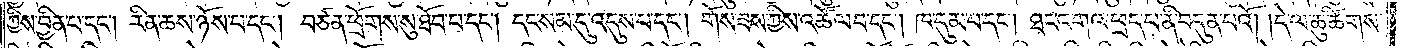ཀྱིས་བྱིན་པ་དང༌། རིན་ཆས་ཉོས་པ་དང༌། བཙན་ཕྲོགས་སུ་ཐོབ་པ་དང༌། དང་སམ་དུ་འདུས་པ་དང༌། གོས་ཟས་ཀྱིས་འཚོལ་བ་དང༌། ཁ་དུམ་པ་དང༌། ཐང་འགའ་ཕྲད་པ་ནི་བདུན་པའོ། །དེ་ལ་ཆུ་ཚིགས་
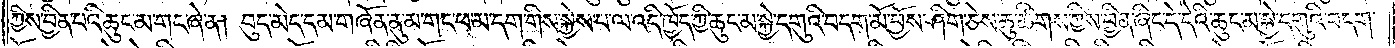ཀྱིས་བྱིན་པའི་ཆུང་མ་གང་ཞེ་ན། བུད་མེད་དམ་གཞོན་ནུ་མ་གང་ཕ་མ་དག་གིས་སྐྱེས་པ་ལ་འདི་ཁྱོད་ཀྱི་ཆུང་མ་སྐྱེ་དགུའི་བདག་མོ་བྱོས་ཤིག་ཅེས་ཆུ་ཚིགས་ཀྱིས་བྱིན་ཞིང་དེ་དེའི་ཆུང་མ་སྐྱེ་དགུའི་བདག་
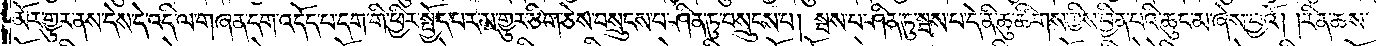མོར་གྱུར་ནས་དེས་དེ་འདི་ལ་གཞན་དག་འདོད་པ་དག་གི་ཕྱིར་སྤྱོད་པར་མ་གྱུར་ཅིག་ཅེས་བསྲུངས་པ་ཤིན་ཏུ་བསྲུངས་པ། སྦས་པ་ཤིན་ཏུ་སྦས་པ་དེ་ནི་ཆུ་ཚིགས་ཀྱིས་བྱིན་པའི་ཆུང་མ་ཞེས་བྱའོ། །རིན་ཆས་
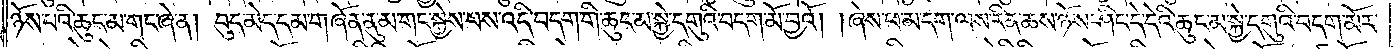ཉོས་པའི་ཆུང་མ་གང་ཞེ་ན། བུད་མེད་དམ་གཞོན་ནུ་མ་གང་སྐྱེས་པས་འདི་བདག་གི་ཆུང་མ་སྐྱེ་དགུའི་བདག་མོ་བྱའོ། །ཞེས་ཕ་མ་དག་ལས་རིན་ཆས་ཉོས་ཤིང་དེ་དེའི་ཆུང་མ་སྐྱེ་དགུའི་བདག་མོར་
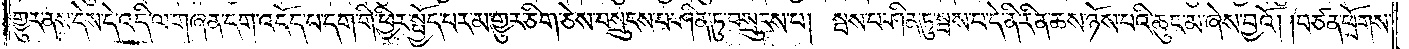གྱུར་ནས་དེས་དེ་འདི་ལ་གཞན་དག་འདོད་པ་དག་གི་ཕྱིར་སྤྱོད་པར་མ་གྱུར་ཅིག་ཅེས་བསྲུངས་ཤིན་ཏུ་བསྲུངས་པ། སྦས་པ་ཤིན་ཏུ་སྦས་པ་དེ་ནི་རིན་ཆས་ཉོས་པའི་ཆུང་མ་ཞེས་བྱའོ། །བཙན་ཕྲོགས་
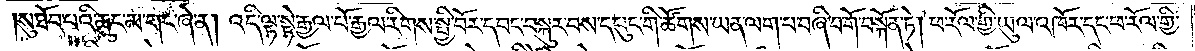སུ་ཐོབ་པའི་ཆུང་མ་གང་ཞེ་ན། འདི་ལྟ་སྟེ་རྒྱལ་པོ་རྒྱལ་རིགས་སྤྱི་བོར་དབང་བསྐུར་བས་དཔུང་གི་ཚོགས་ཡན་ལག་པ་བཞི་པ་གོ་བསྐོན་ཏེ། ཕ་རོལ་གྱི་ཡུལ་འཁོར་དང་ཕ་རོལ་གྱི་
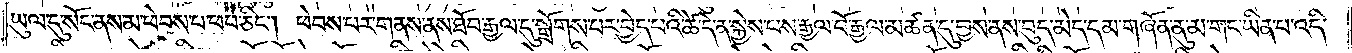ཡུལ་དུ་སོང་ནས་མ་ཕེབས་པ་ཕབ་ཅིང༌། ཕེབས་པར་གནས་ནས་ཐོབ་རྒྱལ་དུ་སྒྲོགས་པར་བྱེད་པའི་ཚེ་དེ་ན་སྐྱེས་པས་རྒྱལ་པོ་རྒྱལ་མཚན་དུ་བྱས་ནས་བུད་མེད་དམ་གཞོན་ནུ་མ་གང་ཡིན་པ་འདི་
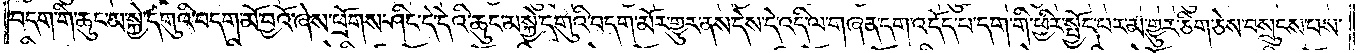བདག་གི་ཆུང་མ་སྐྱེ་དགུའི་བདག་མོ་བྱའོ་ཞེས་ཕྲོགས་ཤིང་དེ་དེའི་ཆུང་མ་སྐྱེ་དགུའི་བདག་མོར་གྱུར་ནས་དེས་དེ་འདི་ལ་གཞན་དག་འདོད་པ་དག་གི་ཕྱིར་སྤྱོད་པར་མ་གྱུར་ཅིག་ཅེས་བསྲུངས་པས་
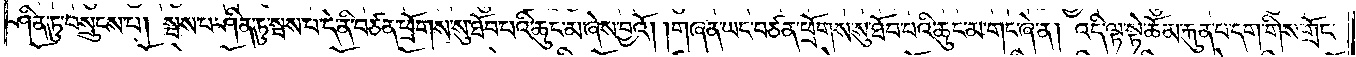ཤིན་ཏུ་བསྲུངས་པ། སྦས་པ་ཤིན་ཏུ་སྦས་པ་དེ་ནི་བཙན་ཕྲོགས་སུ་ཐོབ་པའི་ཆུང་མ་ཞེས་བྱའོ། །གཞན་ཡང་བཙན་ཕྲོགས་སུ་ཐོབ་པའི་ཆུང་མ་གང་ཞེ་ན། འདི་ལྟ་སྟེ་ཆོམ་རྐུན་པ་དག་གིས་གྲོང་
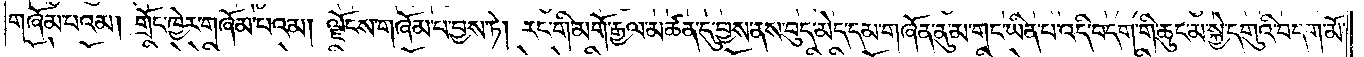གཞོམ་པའམ། གྲོང་ཁྱེར་གཞོམ་པའམ། ལྗོངས་གཞོམ་པ་བྱས་ཏེ། རང་གི་མགོ་རྒྱལ་མཚན་དུ་བྱས་ནས་བུད་མེད་དམ་གཞོན་ནུ་མ་གང་ཡིན་པ་འདི་བདག་གི་ཆུང་མ་སྐྱེ་དགུའི་བདག་མོ་
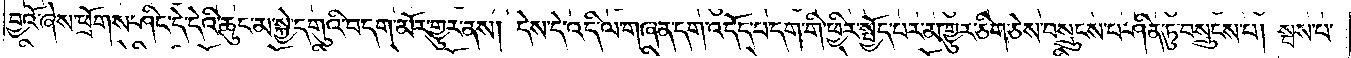བྱའོ་ཞེས་ཕྲོགས་ཤིང་དེ་དེའི་ཆུང་མ་སྐྱེ་དགུའི་བདག་མོར་གྱུར་ནས། དེས་དེ་འདི་ལ་གཞན་དག་འདོད་པ་དག་གི་ཕྱིར་སྤྱོད་པར་མ་གྱུར་ཅིག་ཅེས་བསྲུངས་པ་ཤིན་ཏུ་བསྲུངས་པ། སྦས་པ་
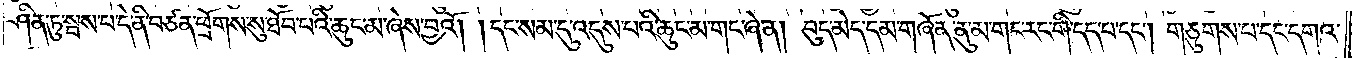ཤིན་ཏུ་སྦས་པ་དེ་ནི་བཙན་ཕྲོགས་སུ་ཐོབ་པའི་ཆུང་མ་ཞེས་བྱའོ། །དང་སམ་དུ་འདུས་པའི་ཆུང་མ་གང་ཞེ་ན། བུད་མེད་དམ་གཞོན་ནུ་མ་གང་རང་གི་དད་པ་དང༌། གཅུགས་པ་དང་དགའ་
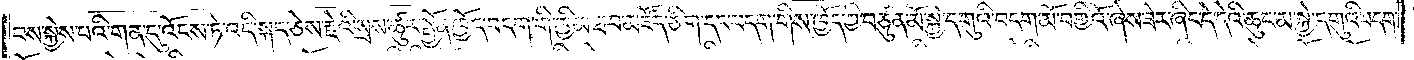བས་སྐྱེས་པའི་གན་དུ་འོངས་ཏེ་འདི་སྐད་ཅེས་རྗེའི་སྲས་ཚུར་སྤྱོན་ཁྱོད་བདག་གི་ཁྱིམ་ཐབ་མཛོད་ཅིག་དང་བདག་གིས་ཁྱོད་ཀྱི་བཙུན་མོ་སྐྱེ་དགུའི་བདག་མོ་བགྱིའོ་ཞེས་ཟེར་ཞིང་དེ་དེའི་ཆུང་མ་སྐྱེ་དགུའི་བདག་
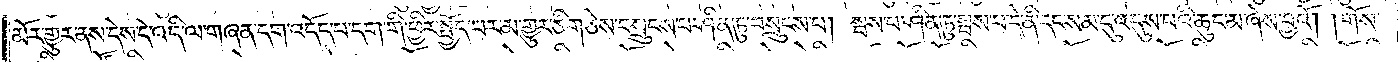མོར་གྱུར་ནས་དེས་དེ་འདི་ལ་གཞན་དག་འདོད་པ་དག་གི་ཕྱིར་སྤྱོད་པར་མ་གྱུར་ཅིག་ཅེས་བསྲུངས་པ་ཤིན་ཏུ་བསྲུངས་པ། སྦས་པ་ཤིན་ཏུ་སྦས་པ་དེ་ནི་དང་སམ་དུ་འདུས་པའི་ཆུང་མ་ཞེས་བྱའོ། །གོས་
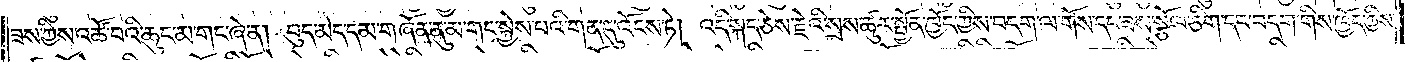ཟས་ཀྱིས་འཚོ་བའི་ཆུང་མ་གང་ཞེ་ན། བུད་མེད་དམ་གཞོན་ནུ་མ་གང་སྐྱེས་པའི་གན་དུ་འོངས་ཏེ། འདི་སྐད་ཅེས་རྗེའི་སྲས་ཚུར་སྤྱོན་ཁྱོད་ཀྱིས་བདག་ལ་གོས་དང་ཟས་སྩོལ་ཅིག་དང་བདག་གིས་ཁྱོད་ཀྱིས་
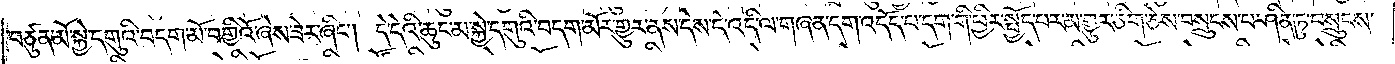བཙུན་མོ་སྐྱེ་དགུའི་བདག་མོ་བགྱིའོ་ཞེས་ཟེར་ཞིང༌། དེ་དེའི་ཆུང་མ་སྐྱེ་དགུའི་བདག་མོར་གྱུར་ནས་དེས་དེ་འདི་ལ་གཞན་དག་འདོད་པ་དག་གི་ཕྱིར་སྤྱོད་པར་མ་གྱུར་ཅིག་ཅེས་བསྲུངས་པ་ཤིན་ཏུ་བསྲུངས་
